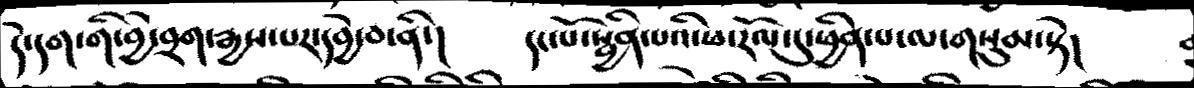དེ་དག་གི་བྱེ་བྲག་རྒྱས་པར་དབྱེ་བ་ནི་།   དང་པོ་སྦྱིན་པའི་ཕ་རོལ་དུ་ཕྱིན་པ་ལ་གསུམ་སྟེ།
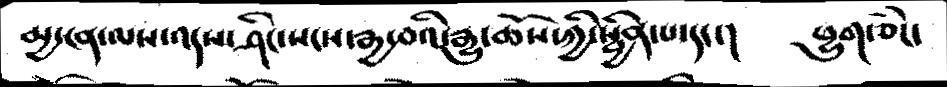མྱ་ངན་ལས་འདས་ཤིང་སངས་རྒྱ་བའི་རྒྱུ་ཆོས་ཀྱི་སྦྱིན་པ་དང་།  ཕྱུག་ཅིང་
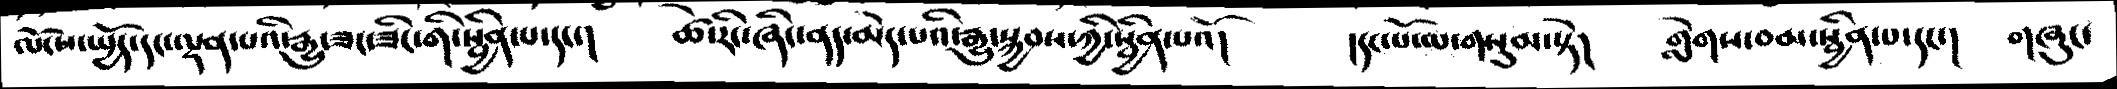ལོངས་སྤྱོད་དང་ལྡན་པའི་རྒྱུདཟང་ཟིང་གི་སྦྱིན་པ་དང་།   ཚེ་རིང་ཞིང་ནད་མེད་པའི་རྒྱུ་སྐྱབས་ཀྱི་སྦྱིན་པའོ།   །དང་པོ་ལ་གསུམ་སྟེ།  གླེགས་བམ་སྦྱིན་པ་དང་།  གཞུང་
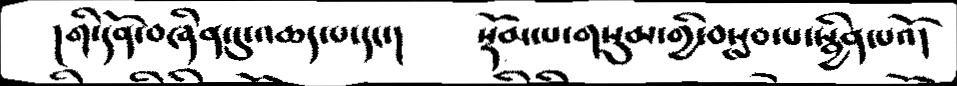།གི་དོན་བཞིན་དུ་འཆད་པ་དང་།   སྡོམ་པ་གསུམ་གྱི་བསླབ་པ་སྦྱིན་པའོ།
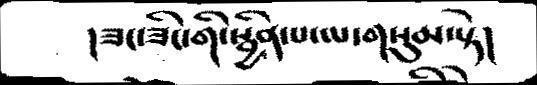།ཟང་ཟིང་གི་སྦྱིན་པ་ལ་གསུམ་སྟེ།
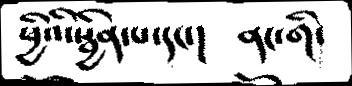ཕྱིའི་སྦྱིན་པ་དང་།  ནང་གི་
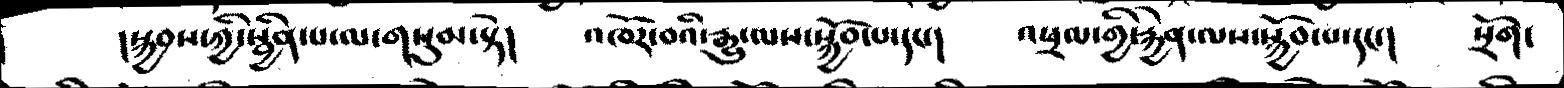།སྐྱབས་ཀྱི་སྦྱིན་པ་ལ་གསུམ་སྟེ།   འཁོར་བའི་རྒྱུ་ལས་སྐྱོབ་པ་དང་།  འཕྲལ་ཀྱི་རྐྱེན་ལས་སྐྱོབ་པ་དང་།  སྲོག་
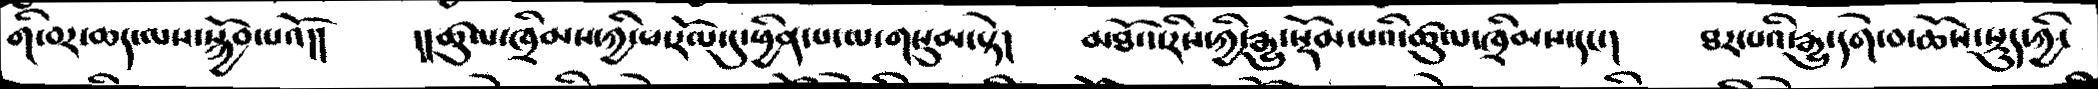གི་བར་ཆད་ལས་སྐྱོབ་པའོ།།   །།ཚུལ་ཁྲིམས་ཀྱི་ཕ་རོལ་དུ་ཕྱིན་པ་ལ་གསུམ་སྟེ།  མཐོའ་རིས་ཀྱི་རྒུ་སྡོམ་པའི་ཚུལ་ཁྲིམས་དང་།  ཐར་པའི་རྒྱུ་དགེ་བ་ཆོས་སྡུད་ཀྱི་
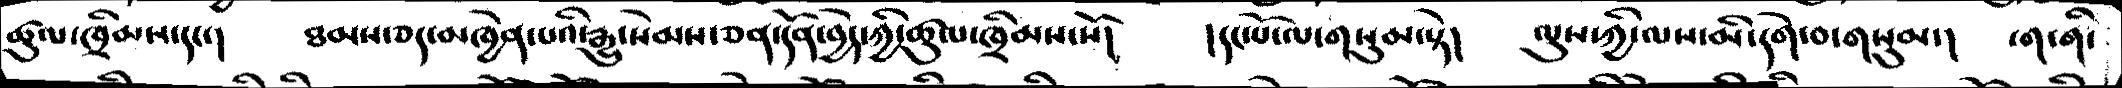ཚུལ་ཁྲིམས་དང་།   ཐམས་ཅད་མཁྱེན་པའི་རྒྱུ་སེམས་ཅན་དོན་བྱེད་ཀྱི་ཚུལ་ཁྲིམས་སོ།   །དང་པོ་ལ་གསུམ་སྟེ།   ལུས་ཀྱི་ལས་མི་དགེ་བ་གསུམ་།  ངག་གི་
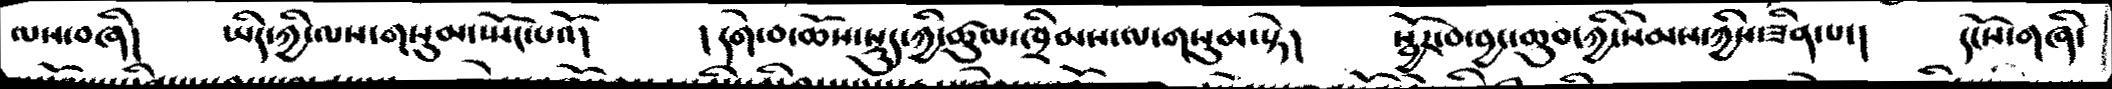ལས་བཞི།  ཡིད་ཀྱི་ལས་གསུམ་སྤོང་པའོ།   །དགེ་བ་ཆོས་སྡུད་ཀྱི་ཚུལ་ཁྲིམས་ལ་གསུམ་སྟེ།   སྦྱོར་བ་བྱང་ཆུབ་ཀྱི་སེམས་ཀྱིས་ཟིན་པ་།  དངོས་གཞི་
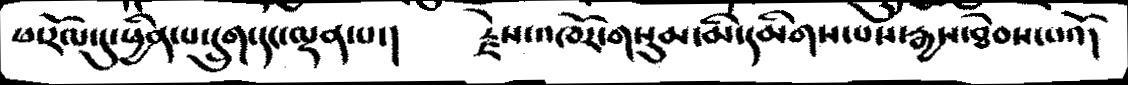ཕ་རོལ་དུ་ཕྱིན་པ་དྲུག་དང་ལྡན་པ་།  རྗེས་འཁོར་གསུམ་མི་དམིགས་པས་རྒྱས་ཐེབས་པའོ།
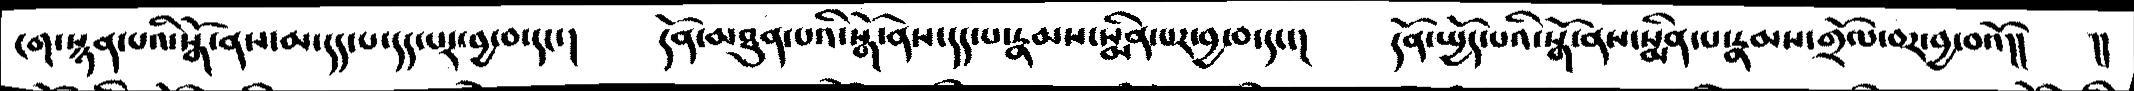ངག་སྙན་པའི་སྒོ་ནས་མ་དད་པ་དད་པར་བྱ་བ་དང་།  དོན་མཐུན་པའི་སྒོ་ནས་དད་པ་རྣམས་སྨིན་པར་བྱ་བ་དང་།  དོན་སྤྱོད་པའི་སྒོ་ནས་སྨིན་པ་རྣམས་གྲོལ་བར་བྱ་བའོ།།   །།
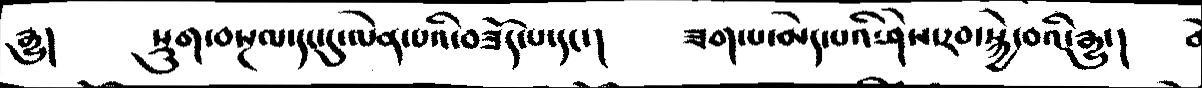རྒྱུ།   སྡུག་བསྔལ་དང་དུ་ལེན་པའི་བཟོད་པ་དང་།   ཟག་པ་མེད་པའི་ཤེས་རབ་སྐྱེ་བའི་རྒྱུ་།
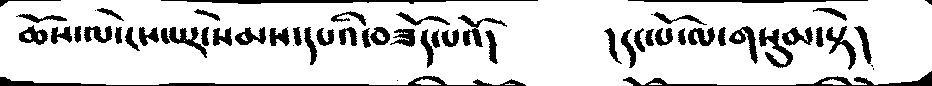ཆོས་ལ་ངེས་པར་སེམས་དཔའི་བཟོད་པའོ།    །དང་པོ་ལ་གསུམ་སྟེ།
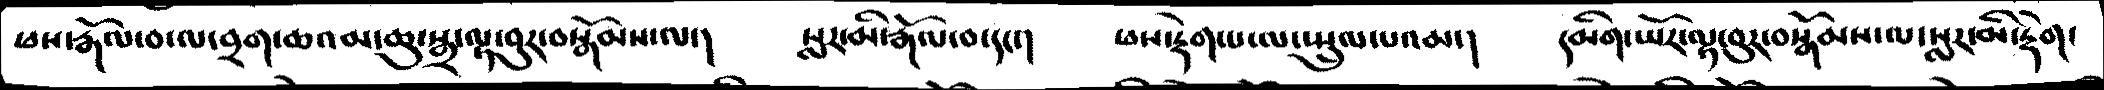ཕས་རྒོལ་བ་ལ་བྲག་ཆའམ་ཆུ་སྒྲ་ལྟ་བུར་བསྒོམས་ལ་།   སླར་མི་རྒོལ་བ་དང་།  ཕས་རྡེག་པ་ལ་སྤྲུལ་པའམ་།   དམིག་ཡོར་ལྟ་བུར་བསྒོམས་ལ་སླར་མི་རྡེག་
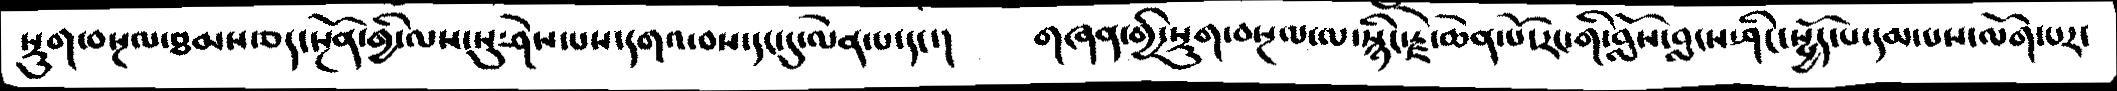སྡུག་བསྔལ་ཐམས་ཅད་སྔོན་གྱི་ལས་སུ་ཤེས་པས་དགའ་བས་དང་དུ་ལེན་པ་དང་།   གཞན་གྱི་སྡུག་བསྔལ་ལ་སྙིང་རྗེ་ཆེན་པོ་རང་གི་བློས་བླངས་ཤིང་སྤྱོད་པ་དམ་པས་ལོག་པར་
